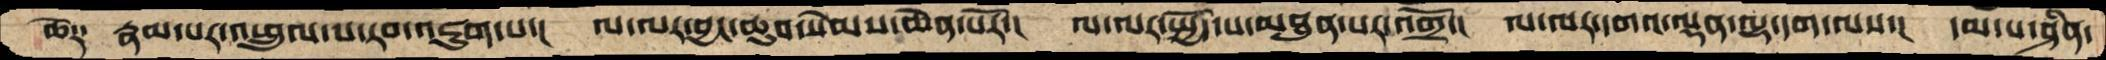ཆེ༑  རྣམ་པར་འཕྲུལ་པ་རབ་འཇུག་པ་།  ལ་ལར་བྱང་ཆུབ་སེམས་ཆེན་པོར་།  ལ་ལར་སྤྱོད་པ་མཐུན་པར་འགྲོ་།  ལ་ལར་དགའ་ལྡན་ལྷ་དག་ལས་།  དམ་པ་ཤིན་
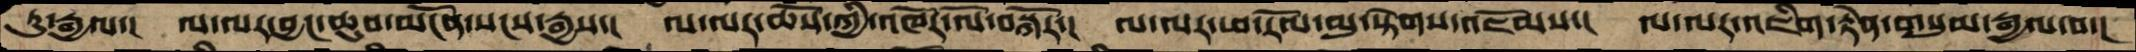ཏུ་རྒྱལ་།  ལ་ལར་བྱང་ཆུབ་མངོན་སངས་རྒྱས་།  ལ་ལར་ཆོས་ཀྱི་འཁོར་ལོ་བསྐོར་།  ལ་ལར་ཕ་རོལ་མུ་སྟེགས་འཇོམས་།  ལ་ལར་འཇིག་རྟེན་གསུམ་རྒྱལ་བ་།
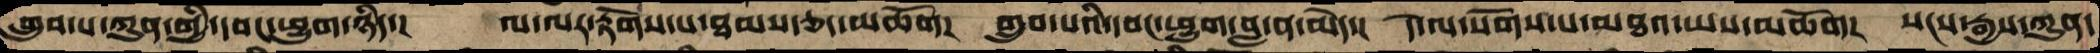གྲུབ་པ་ཀུན་གྱི་དབང་ཕྱུག་ཉིད་།  ལ་ལར་རྟོགས་པ་ཐམས་ཅད་མཆོག།  གྲུབ་པའི་དབང་ཕྱུག་བླ་ན་མེད་།  དེ་ལ་སོགས་པ་མཐའ་ཡས་མཆོག།  སངས་རྒྱས་ཀུན་
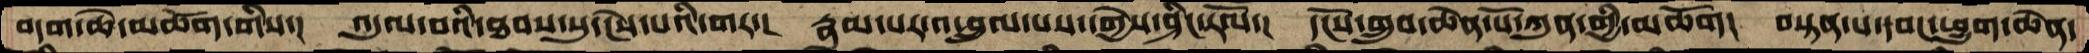བདག་ཆེ་མཆོག་གིས་།  འདུལ་བའི་ཐབས་སུ་ངེས་པའི་གར་།  རྣམ་པར་འཕྲུལ་པས་དགྱེས་ཤིང་རོལ་།  དངོས་གྲུབ་ཆེན་པོ་ཀུན་གྱི་མཆོག།  བསྟན་པ་དབང་ཕྱུག་ཆེན་
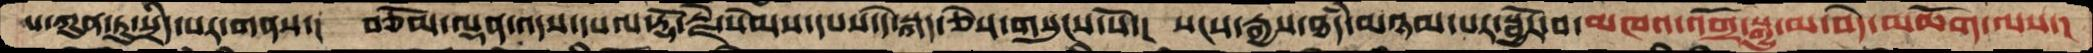པ་ཀུན་ཏུ་སྲིད་པར་གནས་།  བཅོམ་ལྡན་འདས་དཔལ་རྡོ་རྗེ་སེམས་དཔས་དེ་སྐད་ཅེས་གསུངས་སོ་།  སངས་རྒྱས་ཐཾད་མཉམ་པར་སྦྱོར་བ་མཁའ་འགྲོ་སྒྱུ་མ་བདེ་མཆོག་ལས་།
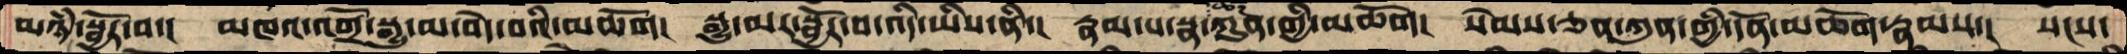མཉཾ་སྦྱོར་བ་། མཁའ་འགྲོ་སྒྱུ་མ་བདེ་བའི་མཆོག། སྒྱུ་མར་སྦྱོར་བ་འདི་ཡིས་ནི་། རྣམ་པ་སྣ་ཚོཌ་ཀུན་གྱི་མཆོག། སེམས་ཅན་ཀུན་གྱི་དོན་མཆོག་རྣམས་། སངས་
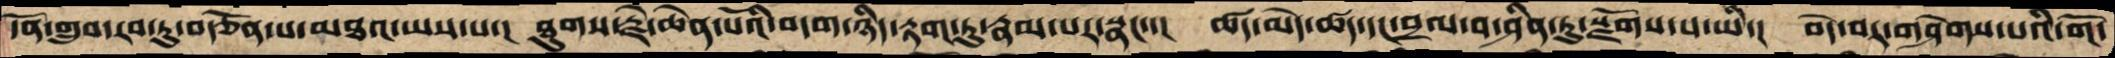དོན་གྲུབ་རབ་ཏུ་བརྩོན་པ་མཐའ་ཡས་པ་།  ཐུགས་རྗེ་ཆེན་པོའི་བདག་ཉིད་རྟག་ཏུ་རྣམ་པར་སྣང་།  ཚད་མེད་ཚད་དང་བྲལ་བ་ཤིན་ཏུ་སྫོགས་པ་ཡི་།  བདེ་བར་གཤེགས་པའི་གོ་
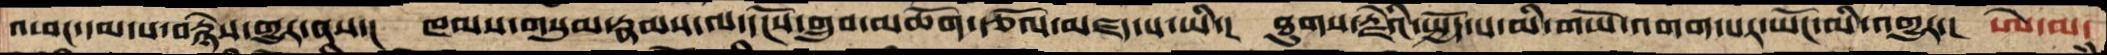འཕང་དམ་པ་བརྙེས་གྱུར་ན་།  ཁམས་གསུམ་རྣམས་ལ་དངོས་གྲུབ་མཆོག་རྩོལ་མཛད་པ་ཡི་།  ཐུགས་རྗེའི་སྤྱོད་པ་མི་གཡོ་འགག་པར་ཡོང་མི་འགྱུར་། ཨེ་མ་
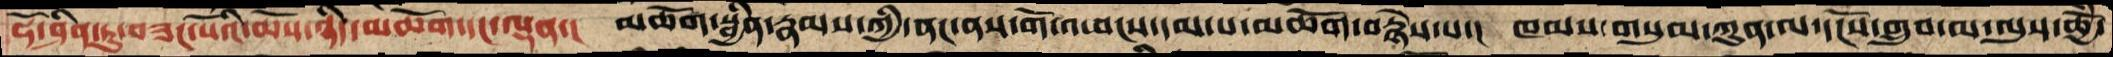ཧོ་ཤིན་ཏུ་བཟང་པོའི་ཆོས་ཉིད་མཆོག་དང་ལྡན་།   མཆོག་སྦྱིན་རྣམས་ཀྱི་ནང་ནས་གོ་འཕངས་དམ་པ་མཆོག་བརྙེས་པ་།  ཁམས་གསུམ་ཀུན་ལ་དངོས་གྲུབ་མ་ལུས་ཆྱོ་
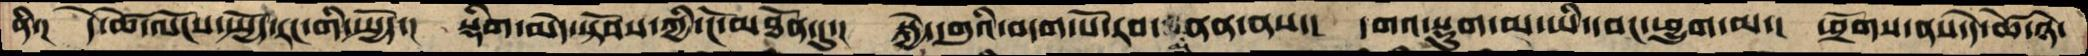ནི༑ དེ་ཚེ་ལོངས་སྤྱོད་རང་གི་སྤྱོད་། སྡིག་མེད་སྟོབས་ཀྱི་ངོ་མཐོན་དུ་། སྐྱེ་དགུའི་བདག་པོ་རབ་མནན་ནས་། དགའ་སྡུག་མ་ཡི་དབང་ཕྱུག་མ་། ཕྲོགས་ནས་དེ་ཚེ་ཉེ་
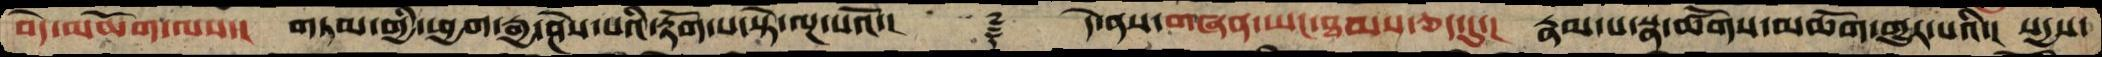བདེ་མཆོག་ལས་། གཏམ་གྱི་ཕྱག་རྒྱ་ཤེས་པའི་རྟོག་པ་སྟེ་ལྔ་པའོ་།   ༈   དེ་ནས་གཞན་ཡང་ཐམས་ཅད་དུ་། རྣམ་པ་སྣ་ཚོགས་མཆོག་གྱུར་པའི་། སདྱས་
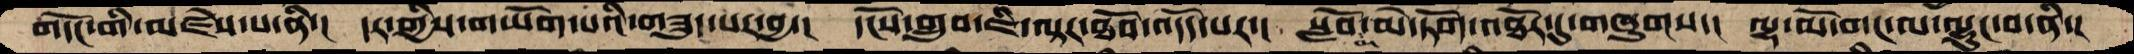གདོང་གི་མཛེས་པ་ནི་། དར་གྱིས་གཡོག་པའི་གཟུང་པར་བྱ་། དངོས་གྲུབ་ཇི་ལྟར་ཐོབ་འདོད་པར་། སློབ་མ་མེ་ཏོག་འཐོར་དུ་གཞུགས་། ལྷ་མོ་གང་ལ་ལྷུང་བ་ནི་།
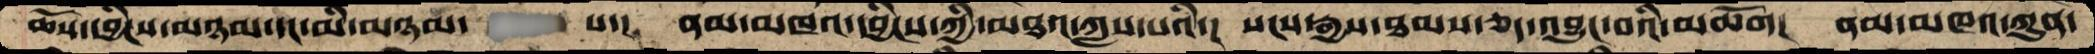ཆོས་དབྱིངས་མཉམ་དང་མི་མཉམ་    པ་།   ནམ་མཁའ་དབྱིངས་ཀྱི་མཐའ་ཀླས་པའི་།  སངས་རྒྱས་ཐམས་ཅད་འབྱུང་བའི་མཆོག།  ནམ་མཁའ་ཀུན་
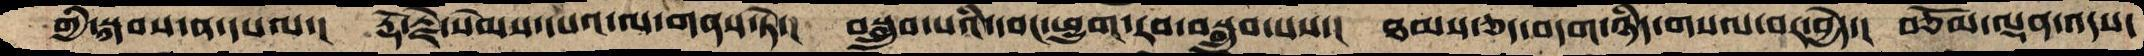གྱི་སྐབས་ན་དཔལ་།  རྡོ་རྗེ་སེམས་དཔའ་ལ་གནས་ཏེ་།   བསྒྲུབ་པའི་དབང་ཕྱུག་རབ་བསྒྲུབ་པས་།  ཐམས་ཅད་བདག་ཉིད་གསལ་བར་བྱེད་།  བཅོམ་ལྡན་འདས་
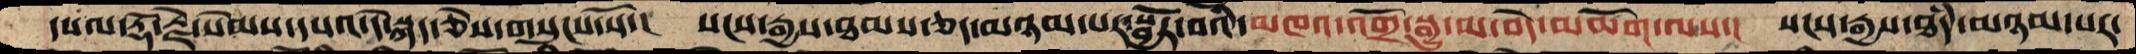དཔལ་རྡོ་རྗེ་སེམས་དཔའ་དེ་སྐད་ཅེས་གསུངས་སོ་།   སངས་རྒྱས་ཐམས་ཅད་མཉམ་པར་སྦྱོར་བའི་མཁའ་འགྲོ་སྒྱུ་མ་བདེ་མཆོག་ལས་།  སངས་རྒྱས་ཐཾད་མཉམ་པར་
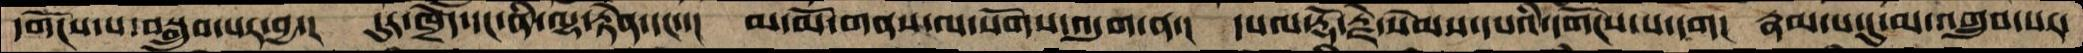དགོངས་པ་བསྒྲུབ་པར་བྱ་།  དུར་ཁྲོད་དང་ནི་ལྷ་རྟེན་དང་་།  མ་མོ་གནས་ལ་སོགས་འདུག་ན་།  དཔལ་རྡོ་རྗེ་སེམས་དཔའི་དགོངས་པ་དག།  རྣམ་པ་དུ་མ་འགྲུབ་པར་
